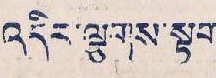འདིར་ལྕགས་སྟག་
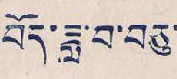བོད་ཟླ་བ་བཅུ་
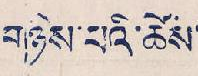གཉིས་པའི་ཚེས་
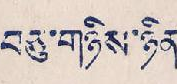བཅུ་གཉིས་ཉིན་
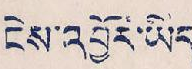ངེས་འབྱོར་ཡིད་
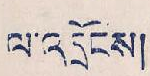ལ་འདྲོངས།
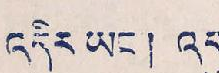འདིར ཡང ། འདུ་
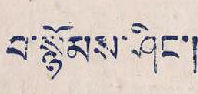བ་སྙོམས་ཤིང་།
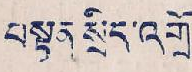བསྟན་སྲིད་འགྲོ་
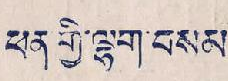ཕན གྱི་ལྷག བསམ་
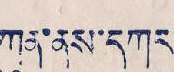ཀུན་ནས་དཀར་
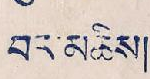བར་མཆིས།
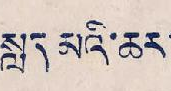སླད་མའི་ཆར་
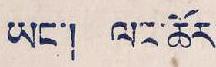ཡང་། ལང་ཆོར་
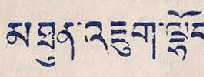མཐུན་འཇུག་ལྷོད་
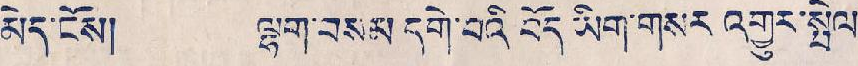མེད་ངོས། ལྷག་བསམ དགེ་བའི བོད ཡིག་གསར འགྱུར་སྤེལ་
